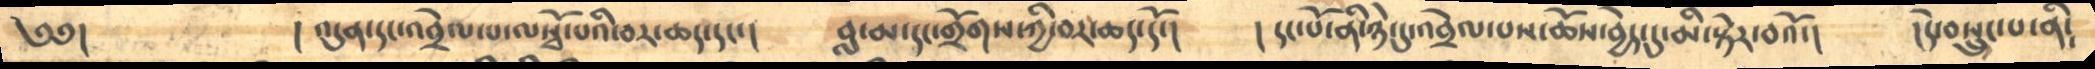༄༅།        །འདུན་དང་འབྲེལ་པ་ལསྭོ་པའི་བར་ཆད་དང་།     བླ་མ་དང་གྲོགས་ཀྱི་བར་ཆད་དོ་།   །དང་པོ་ནི་ཉེ་དུ་འབྲེལ་པས་ཆོས་བྱེད་དུ་མི་སྟེར་བའོ་།   །དེ་བསྲུང་པ་ནི༴
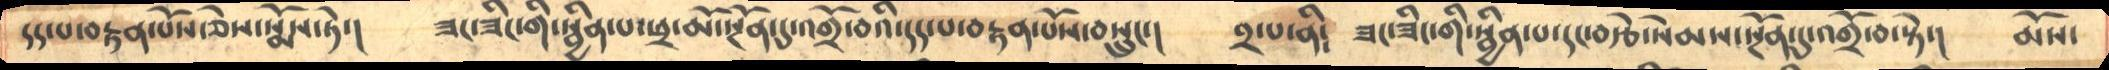དད་པ་བརྟན་པོསཅེས་སྨོས་ཏེ་།     ཟང་ཟིང་གི་སྦྱིན་པ་ཕྲ་མོ་སྔོན་དུ་འགྲོ་བའི་དད་པ་བརྟན་པོས་བསྲུང་།     ༢་པ་ནི༴    ཟང་ཟིང་གི་སྦྱིན་པ་དང་བརྩེ་སེམས་སྔོན་དུ་འགྲོ་བ་སྟེ་།   མོས་
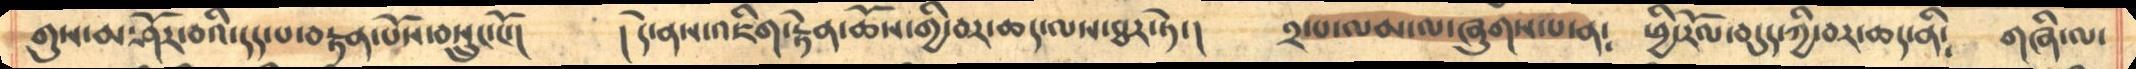གུས་མ་ཤོར་བའི་དད་པ་བརྟན་པོས་བསྲུང་ངོ་།     །དེ་ནས་འཇིག་རྟེན་ཆོས་གྱི་བར་ཆད་ལས་ཐར་ཏེ་།    ༢་པ་ལམ་ལ་ཞུགས་པ་ན༴    ཕྱི་རོལ་བདུད་ཀྱི་བར་ཆད་ནི༴    གཞི་ལ་
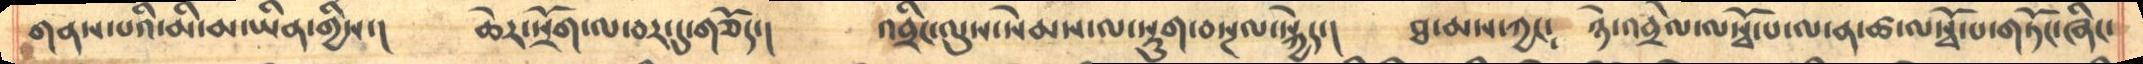གནས་པའི་མི་མ་ཡིན་གྱིས་།    ཆེར་སྲོག་ལ་བར་དུ་གཅོད་།    འབྲིང་ལུས་སེམས་ལ་སྡུག་བསྔལ་སྐྱེད་།   ཐ་མས་ཀྱང༴   ཉེ་འབྲེལ་ལསྭོ་པ་ལ་ན་ཚ་ལསྭོ་པ་གཏོང་ཞིང་
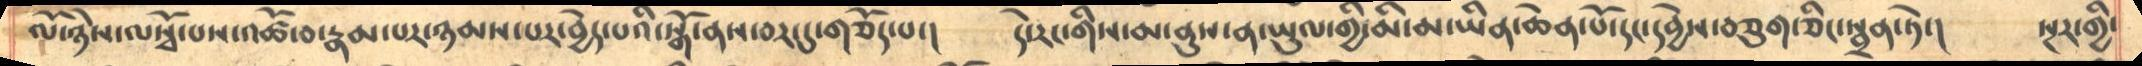ལོ་ཉེས་ལསྭོ་པས་འཚོ་བ་རྣམ་པར་ཉམས་པར་བྱེད་པའི་སྒོ་ནས་བར་དུ་གཅོད་པ་།    དེ་རིང་གིས་མ་ནུས་ན་ཡུལ་གྱི་མི་མ་ཡིན་ཆེན་པོ་དང་དབྱེས་བཅུག་ཅིང་སྦྲན་ཏེ་།    སྔར་གྱི་
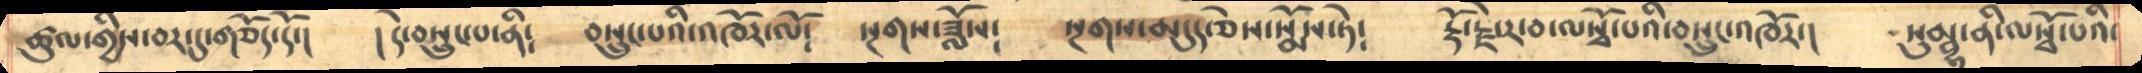ཚུལ་གྱིས་བར་དུ་གཅོད་དོ་།   །དེ་བསྲུང་པ་ནི༴   བསྲུང་པའི་འཁོར་ལོ༴     སྔགས་ཟློས༴    སྔགས་མདུད་ཅེས་སྨོས་ཏེ༴   རྡོ་རྗེ་ར་བ་ལསྭོ་པའི་བསྲུང་འཁོར་།    སུམྦྷ་ནི་ལསྭོ་པའི་
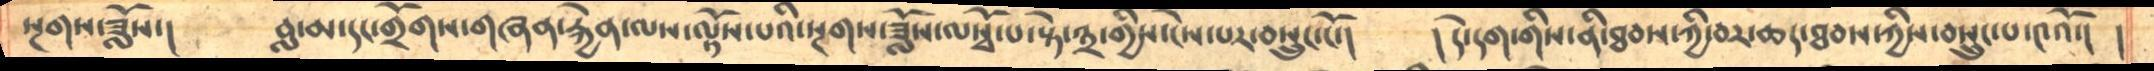སྔགས་ཟློས་།      བླ་མ་དང་གྲོགས་གཞན་རྐྱེན་ལས་ལྟོས་པའི་སྔགས་ཟློས་ལསྭོ་པ་སྟེ་༣་གྱིས་ངེས་པར་བསྲུང་ངོ་།     །དེ་དག་གིས་ནི་ཐབས་ཀྱི་བར་ཆད་ཐབས་ཀྱིས་བསྲུང་པ་༤འོ་།  །
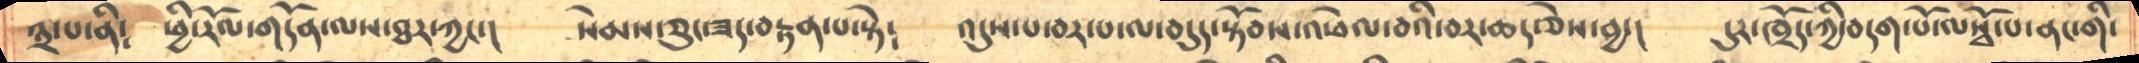༣་པ་ནི༴  ཕྱི་རོལ་གདོན་ལས་ཐར་ཀྱང་།    སེམས་ཅུང་ཟད་བརྟན་པ་སྟེ༴    འདུས་པ་བར་པ་ལ་བདུད་སྟོབས་འཕེལ་བའི་བར་ཆད་ཅེས་བྱ་།   དུར་ཁྲོད་ཀྱི་བདག་པོ་ལསྭོ་པ་ནང་གི་
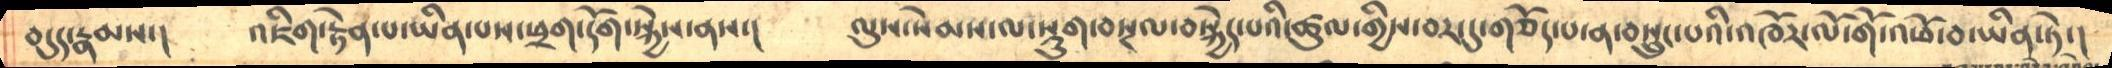བདུད་རྣམས་།       འཇིག་རྟེན་པ་ཡིན་པས་ཕྲག་དོག་སྐྱེས་ནས་།     ལུས་སེམས་ལ་སྡུག་བསྔལ་བསྐྱེད་པའི་ཚུལ་གྱིས་བར་དུ་གཅོད་པ་ན་བསྲུང་པའི་འཁོར་ལོ་གོ་འཕོ་བ་ཡིན་ཏེ་།
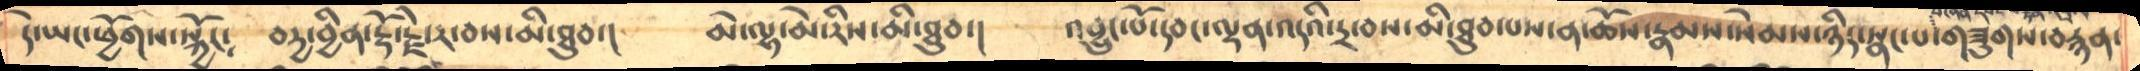དེ་ཡང་ཕྱོགས་སྐྱོང༴   བདྱ་བྱིན་རྡོ་རྗེ་ར་བས་མི་ཐུབ་།     མེ་ལྷ་མེ་རིས་མི་ཐུབ་།    འབྱུང་པོ་དབང་ལྡན་འདའི་དྲ་བས་མི་ཐུབ་པས་ན་ཆོས་རྣམས་སེམས་ཉིད་སྣང་པ་གཟུགས་བརྙན་
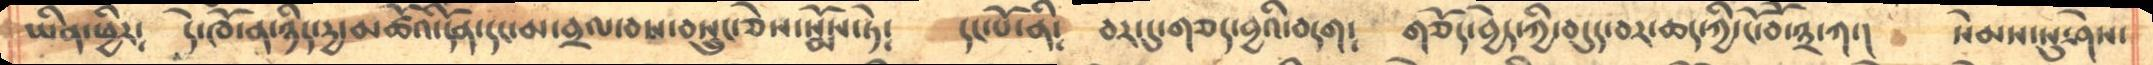ཡིན་ཕྱིར༴    དེ་ཁོ་ན་ཉིད་དྱ་མཚོའི་དོན་དང་མ་བྲལ་བས་བསྲུང་ཅེས་སྨོས་ཏེ༴    དང་པོ་ནི༴   བར་དུ་གཅད་བྱའི་བདག༴   གཅོད་བྱེད་ཀྱི་བདུད་བར་ཆད་ཀྱི་ངོ་བོ་༣་ཀ་།   སེམས་སུ་ཤེས་
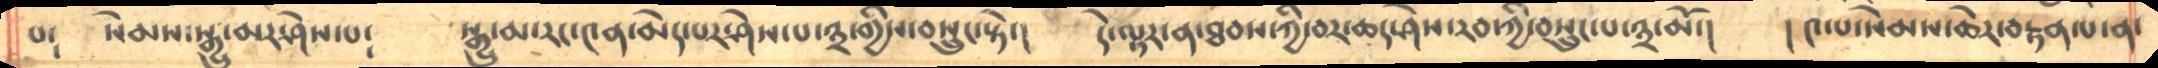པ༴    སེམས་སྒྱུ་མར་ཤེས་པ༴    སྒྱུ་མ་རང་༤ན་མེད་པར་ཤེས་པ་༣་གྱིས་བསྲུང་སྟེ་།   དེ་ལྟར་ན་ཐབས་ཀྱི་བར་ཆད་ཤེས་རབ་ཀྱི་བསྲུང་པ་༣་མོ་།    །༤་པ་སེམས་ཆེར་བརྟན་པ་ན་
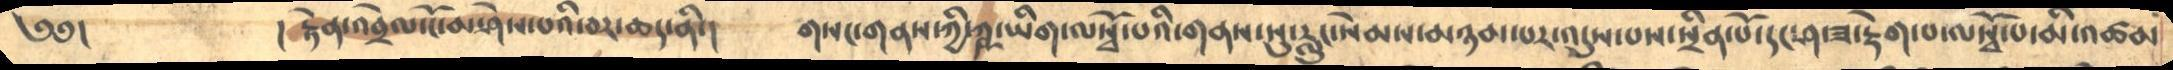༄༅།           །རྟེན་འབྲེལ་ངོ་མ་ཤེས་པའི་བར་ཆད་ནི་།    གསང་གནས་ཀྱི་ཀྵ་ཡིག་ལསྭོ་པའི་གནས་སུ་རླུང་སེམས་མཉམ་པར་འདུས་པས་སྲིན་པོ་དང་ཤ་ཟ་རྡེག་པ་ལསྭོ་པ་མི་འཚམ
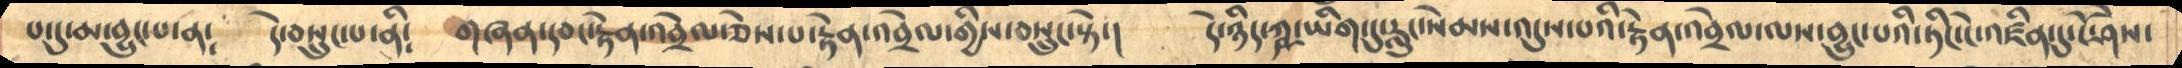པ་དུ་མ་བྱུང་པ་ན༴    དེ་བསྲུང་པ་ནི༴   གཞན་དབང་རྟེན་འབྲེལ་ཅེས་པ་རྟེན་འབྲེལ་གྱིས་བསྲུང་སྟེ་།    དེ་ཉིད་ཀྵ་ཡིག་དུ་རླུང་སེམས་འདུས་པའི་རྟེན་འབྲེལ་ལས་བྱུང་པའི་ཏིང་ངེ་འཛིན་དུ་ངོ་ཤེས་
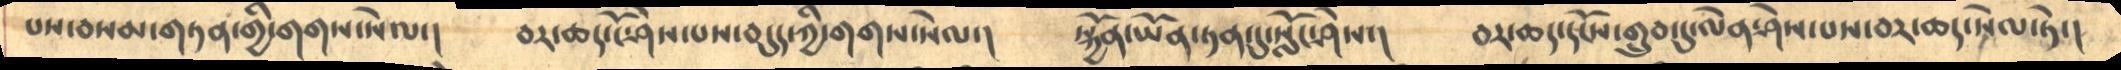པས་བསམ་གཏན་གྱི་གགས་སེལ་།     བར་ཆད་ངོ་ཤེས་པས་བདུད་ཀྱི་གགས་སེལ་།    སྐྱོན་ཡོན་ཏན་དུ་སློང་ཤེས་།   བར་ཆད་དངོས་གྲུབ་དུ་ལེན་ཤེས་པས་བར་ཆད་སེལ་ཏེ་།
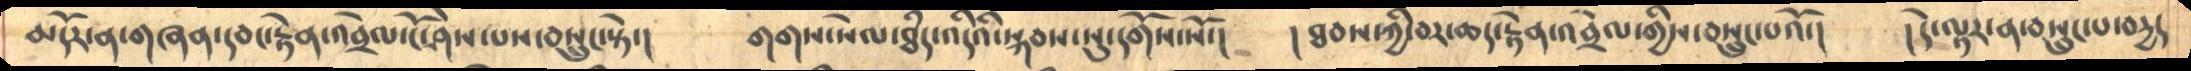མདོར་ན་གཞན་དབང་རྟེན་འབྲེལ་ངོ་ཤེས་པས་བསྲུང་སྟེ་།    གགས་སེལ་ཐཾད་འདིའི་སྐབས་སུ་དགོས་སོ་།    །ཐབས་ཀྱི་བར་ཆད་རྟེན་འབྲེལ་གྱིས་བསྲུང་པའོ་།    །དེ་ལྟར་ན་བསྲུང་པ་བདྱད
